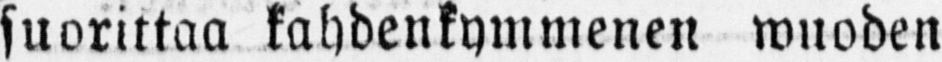suorittaa kahdenkymmenen wuoden
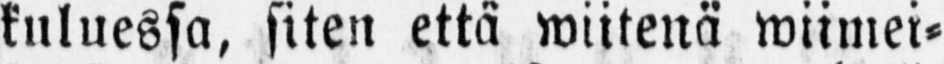kuluessa, siten että wiitenä wiimei-
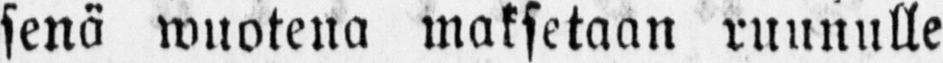senä wuotena maksetaan ruunulle
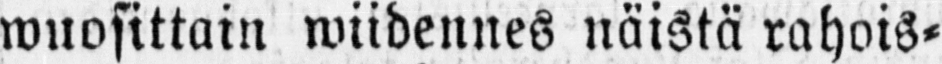wuosittain wiidennes näistä rahois-
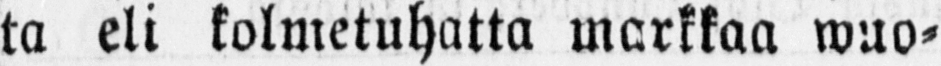ta eli kolmetuhatta markkaa wuo-
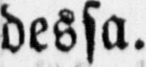dessa.
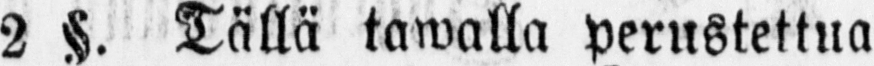2 §. Tällä tawalla perustettua
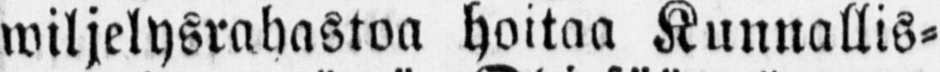wiljelysrahastoa hoitaa Kunnallis-
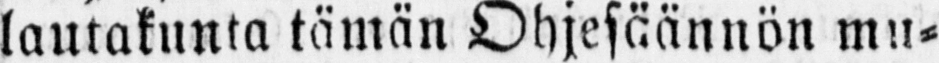lautakunta tämän Ohjesäännön mu-
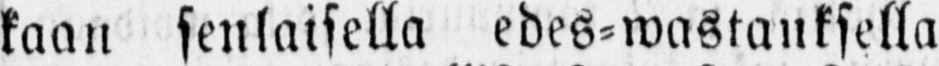kaan senlaisella edes-wastauksella
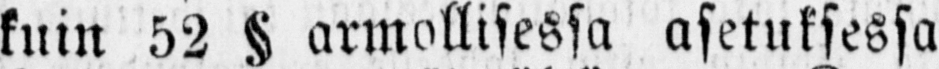kuin 52 § armollisessa asetuksessa
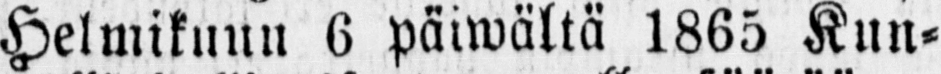Helmikuun 6 päiwältä 1865 Kun-
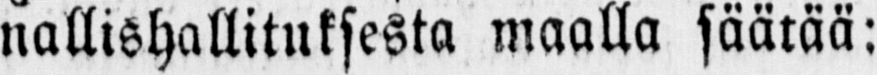nallishallituksesta maalla säätää:
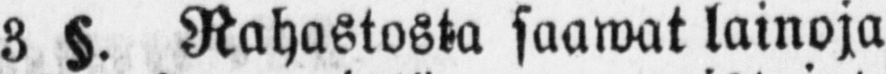3 §. Rahastosta saawat lainoja
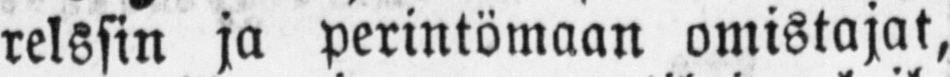relssin ja perintömään omistajat,
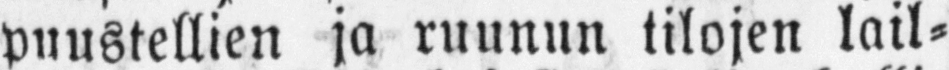puustellien ja ruunun tilojen lail-
